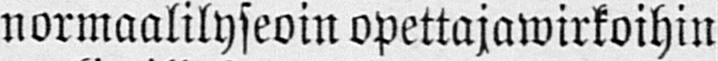normaalilyseoin opettajawirkoihin
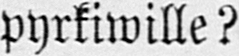pyrkiwille?
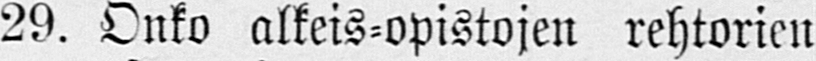29. Onko alkeis-opistojen rehtorien
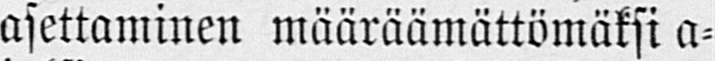asettaminen määräämättömäksi a-
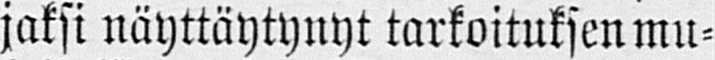jaksi näyttäytynyt tarkoituksen mu-
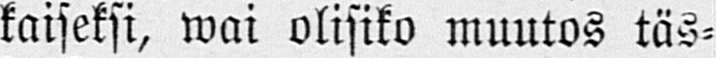kaiseksi, wai olisiko muutos täs-
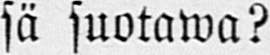sä suotawa?
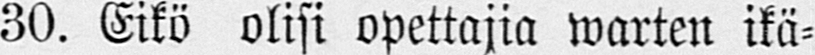30. Eikö olisi opettajia warten ikä-
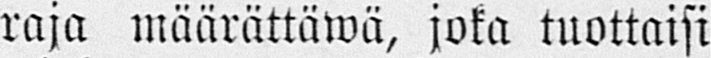raja määrättäwä, joka tuottaisi
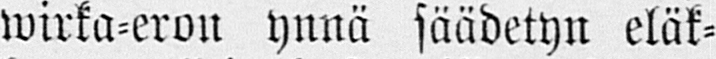wirka-eron ynnä säädetyn eläk-
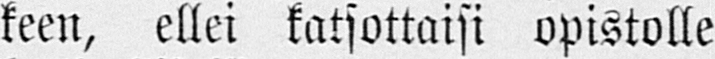keen, ellei katsottaisi opistolle
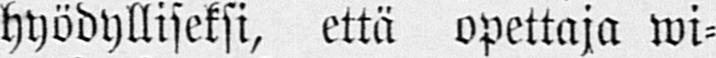hyödylliseksi, että opettaja wi-
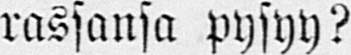rassansa pysyy?
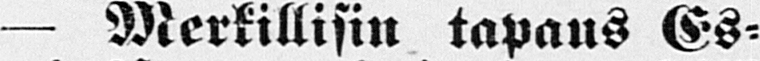— Merkillisin tapaus Es-
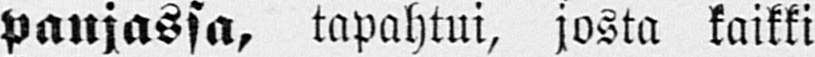panjassa, tapahtui, josta kaikki
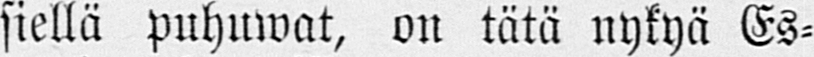siellä puhuwat, on tätä nykyä Es-
